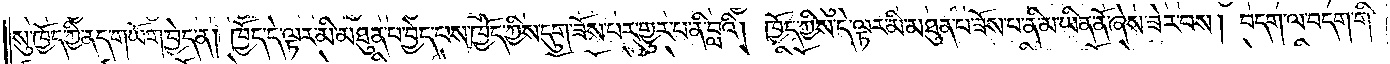སུ་ཁྱོད་ཀྱི་ནད་གཡོག་བྱེད་ན། ཁྱོད་དེ་ལྟར་མི་མཐུན་པ་བྱེད་པས་ཁྱོད་ཀྱིས་དུག་ཟོས་པར་གྱུར་པ་ནི་བླའི། ཁྱོད་ཀྱིས་དེ་ལྟར་མི་མཐུན་པ་ཟོས་པ་ནི་མ་ཡིན་ནོ་ཞེས་ཟེར་བས། བདག་ལ་བདག་གི་
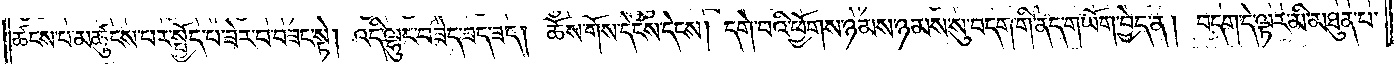ཚངས་པ་མཚུངས་པར་སྤྱོད་པ་ཟེར་བ་བཟང་སྟེ། འདི་ལྷུང་བཟེད་ཟད་ཟད། ཆོས་གོས་དེངས་དེངས། དགེ་བའི་ཕྱོགས་ཉམས་ཉམས་སུ་བདག་གི་ནད་གཡོག་བྱེད་ན། བདག་དེ་ལྟར་མི་མཐུན་པ་
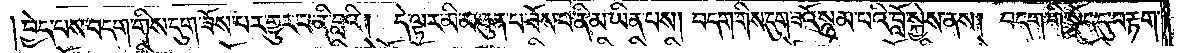བྱེད་པས་བདག་གིས་དུག་ཟོས་པར་གྱུར་པ་ནི་བླའི། དེ་ལྟར་མི་མཐུན་པ་ཟོས་པ་ནི་མ་ཡིན་པས། བདག་གིས་དུག་ཟའོ་སྙམ་པའི་བློ་སྐྱེས་ནས། བདག་གི་སྣོད་དུ་བརྟག་
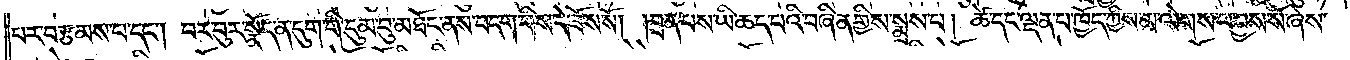པར་བརྩམས་པ་དང༌། བར་བུར་སྣོད་ན་དུག་གི་དུམ་བུ་མཐོང་ནས་བདག་གིས་དེ་ཟོས་སོ། །བྲན་པས་ཡི་ཆད་པའི་བཞིན་གྱིས་སྨྲས་པ། ཚེ་དང་ལྡན་པ་ཁྱོད་ཀྱིས་མ་ལེགས་པ་བྱས་སོ་ཞེས་
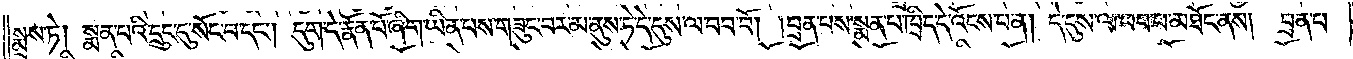སྨྲས་ཏེ། སྨན་པའི་དྲུང་དུ་སོང་བ་དང༌། དུག་དེ་རྣོན་པོ་ཞིག་ཡིན་པས་གཟུང་བར་མ་ནུས་ཏེ་དེ་དུས་ལ་བབ་བོ། །བྲན་པས་སྨན་པ་ཁྲིད་དེ་འོངས་པ་ན། དེ་དུས་ལ་བབ་པ་མཐོང་ནས། བྲན་པ་
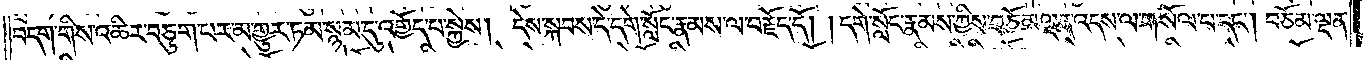བདག་གིས་འཆིར་བཅུག་པར་མ་གྱུར་ཏམ་སྙམ་དུ་འགྱོད་པ་སྐྱེས། དེས་སྐབས་དེ་དགེ་སློང་རྣམས་ལ་བརྗོད་དོ། །དགེ་སློང་རྣམས་ཀྱིས་བཅོམ་ལྡན་འདས་ལ་གསོལ་པ་དང༌། བཅོམ་ལྡན་
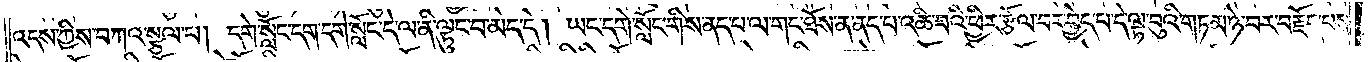འདས་ཀྱིས་བཀའ་སྩལ་པ། དགེ་སློང་དག་དགེ་སློང་དེ་ལ་ནི་ལྟུང་བ་མེད་དེ། ཡང་དགེ་སློང་གིས་ནད་པ་ལ་གང་ཐོས་ན་ནད་པ་འཆི་བའི་ཕྱིར་རྩོལ་བར་བྱེད་པ་དེ་ལྟ་བུའི་གཏམ་ཉེ་བར་བརྗོད་པས་
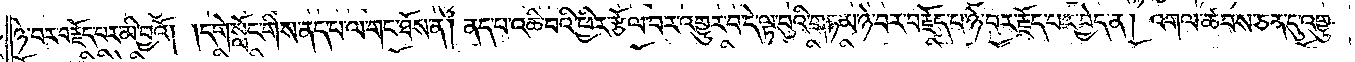ཉེ་བར་བརྗོད་པར་མི་བྱའོ། །དགེ་སློང་གིས་ནད་པ་ལ་གང་ཐོས་ན། ནད་པ་འཆི་བའི་ཕྱིར་རྩོལ་བར་འགྱུར་བ་དེ་ལྟ་བུའི་གཏམ་ཉེ་བར་བརྗོད་པ་ཉེ་བར་རྗོད་པར་བྱེད་ན། འགལ་ཚབས་ཅན་དུ་འགྱུར་
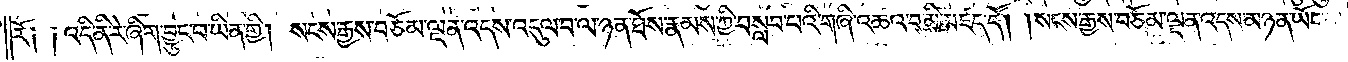རོ༑ ༑འདི་ནི་རེ་ཞིག་བྱུང་བ་ཡིན་གྱི། སངས་རྒྱས་བཅོམ་ལྡན་འདས་འདུལ་བ་ལ་ཉན་ཐོས་རྣམས་ཀྱི་བསླབ་པའི་གཞི་འཆའ་བ་མི་མཛད་དོ། །སངས་རྒྱས་བཅོམ་ལྡན་འདས་མཉན་ཡོད་ན་
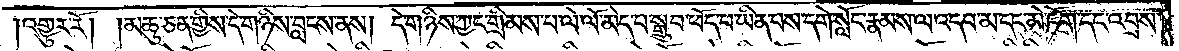འགྱུར་རོ། །མཆུ་ཅན་གྱིས་དེ་གཉིས་བླངས་ནས། དེ་གཉིས་ཀྱང་གྲིམས་པ་ལེ་ལོ་མེད་པ་སྒྲུབ་ཕོད་པ་ཡིན་པས་དགེ་སློང་རྣམས་ལ་འདབ་མ་དང་མེ་ཏོག་དང་འབྲས་
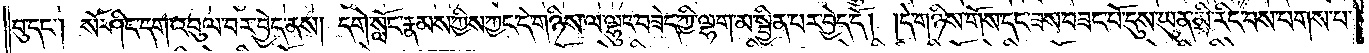བུ་དང༌། སོ་ཤིང་དག་འབུལ་བར་བྱེད་ནས། དགེ་སློང་རྣམས་ཀྱིས་ཀྱང་དེ་གཉིས་ལ་ལྷུང་བཟེད་ཀྱི་ལྷག་མ་སྦྱིན་པར་བྱེད་དོ། །དེ་གཉིས་གོས་དང་ཟས་བཟང་པོ་དུས་ཡུན་མི་རིང་བས་པགས་པ་
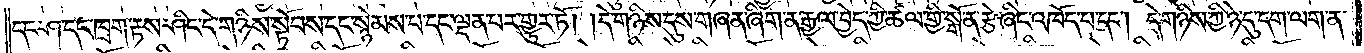དང་ཤ་དང་ཁྲག་རྟས་ཤིང་དེ་གཉིས་སྟོབས་དང་སྙེམས་པ་དང་ལྡན་པར་གྱུར་ཏོ། །དེ་གཉིས་དུས་གཞན་ཞིག་ན་རྒྱལ་བྱེད་ཀྱི་ཚལ་གྱི་སྒོ་ན་རྩེ་ཞིང་འཁོད་པ་དང༌། དེ་གཉིས་ཀྱི་ཉེ་དུ་དག་ལག་ན་
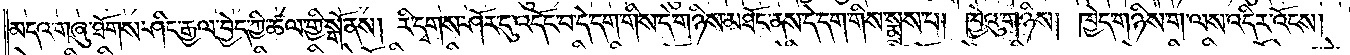མདའ་གཞུ་ཐོགས་ཤིང་རྒྱལ་བྱེད་ཀྱི་ཚལ་གྱི་སྒོ་ནས། རི་དྭགས་ཤོར་དུ་འདོང་བ་དེ་དག་གིས་དེ་གཉིས་མཐོང་ནས་དེ་དག་གིས་སྨྲས་པ། ཁྱེའུ་གཉིས། ཁྱེད་གཉིས་ག་ལས་འདིར་འོངས།
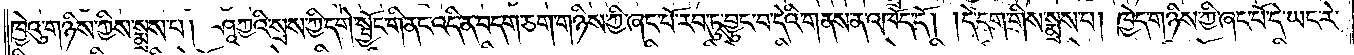ཁྱེའུ་གཉིས་ཀྱིས་སྨྲས་པ། ཤཱཀྱའི་སྲས་ཀྱི་དགེ་སྦྱོང་གི་ནང་འདི་ན་བདག་ཅག་གཉིས་ཀྱི་ཞང་པོ་རབ་ཏུ་བྱུང་བ་དེའི་གནས་ན་འཁོད་དོ། །དེ་དག་གིས་སྨྲས་པ། ཁྱེད་གཉིས་ཀྱི་ཞང་པོ་དེ་ཡང་རེ་
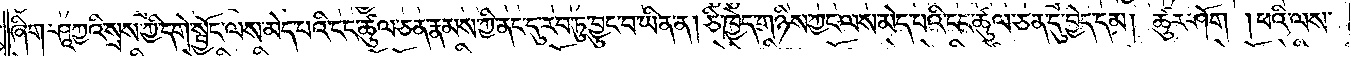ཞིག་ཤཱཀྱའི་སྲས་ཀྱི་དགེ་སྦྱོང་ལས་མེད་པའི་ངང་ཚུལ་ཅན་རྣམས་ཀྱི་ནང་དུ་རབ་ཏུ་བྱུང་བ་ཡིན་ན། ཅི་ཁྱེད་གཉིས་ཀྱང་ལས་མེད་པའི་ངང་ཚུལ་ཅན་དུ་བྱེད་དམ། ཚུར་ཤོག །ཕའི་ལས་
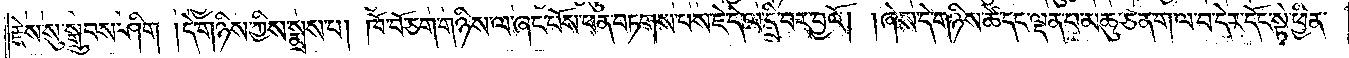རྗེས་སུ་སྒྲུབས་ཤིག །དེ་གཉིས་ཀྱིས་སྨྲས་པ། ཁོ་བོ་ཅག་གཉིས་ལ་ཞང་པོས་ཕན་བཏགས་པས་ཇེ་དེ་ལ་དྲི་བར་བྱའོ། །ཞེས་དེ་གཉིས་ཚེ་དང་ལྡན་པ་མཆུ་ཅན་ག་ལ་བ་དེར་དོང་སྟེ་ཕྱིན་
